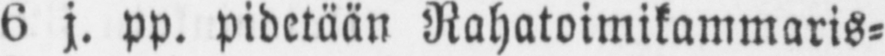6 j. pp. pidetään Rahatoimikammaris-
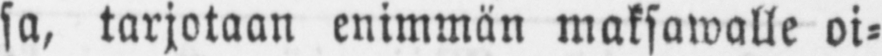sa, tarjotaan enimmän maksawalle oi-
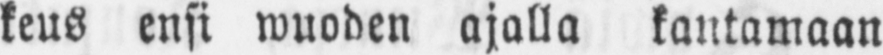keus ensi wuoden ajalla kantamaan
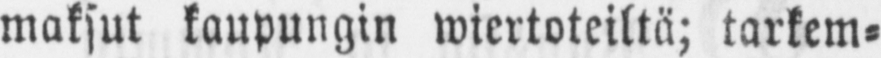maksut kaupungin wiertoteiltä; tarkem-
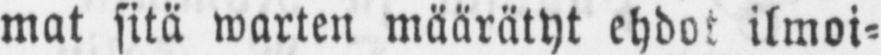mat sitä warten määrätyt ehdot ilmoi-
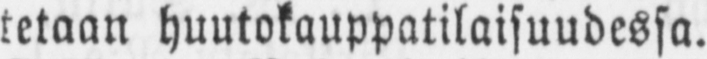tetaan huutokauppatilaisuudessa.
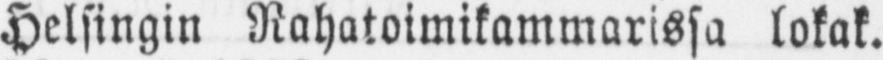Helsingin Rahatoimikammarissa lokak.
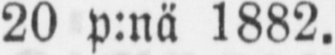20 p:nä 1882.
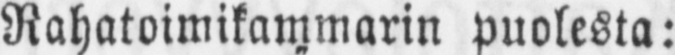Rahatoimikammarin puolesta:
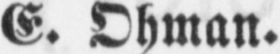E. Öhman.
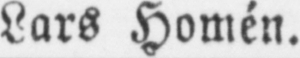Lars Homén.
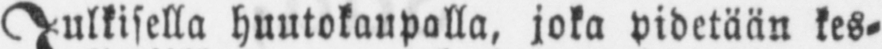Julkisella huutokaupalla, joka pidetään kes-
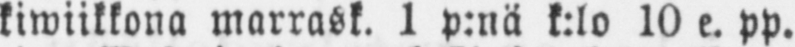kiwiikkona marrask. 1 p:nä k:lo 10 e. pp.
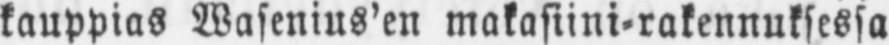kauppias Wasenius'en makasiini-rakennuksessa
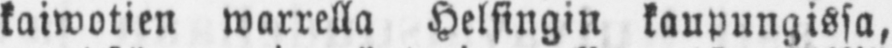kaiwotien warrella Helsingin kaupungissa,
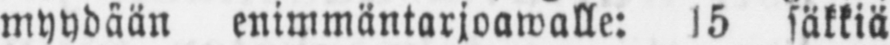myydään enimmäntarjoawalle: 15 säkkiä
